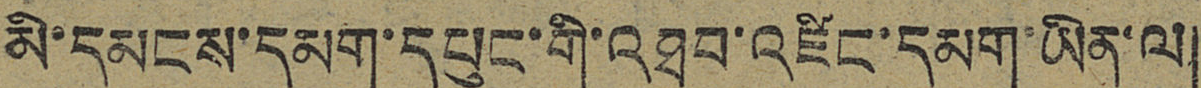མི་དམངས་དམག་དཔུང་གི་འཐབ་འཛིང་དམག་ཡིན་ལ།
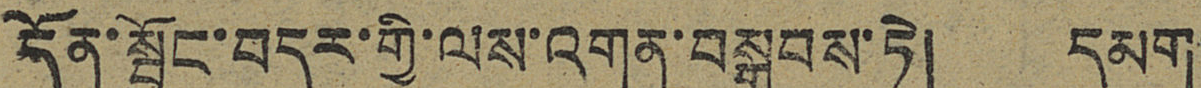དོན་སྦྱོང་བདར་གྱི་ལས་འགན་བསྒྲུབས་ཏེ། དམག་
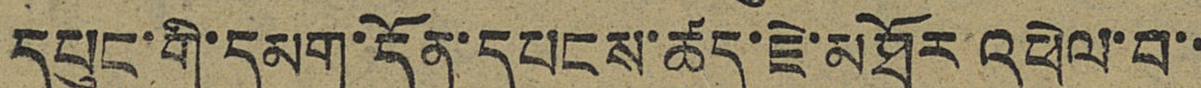དཔུང་གི་དམག་དོན་དཔངས་ཚད་ཇེ་མཐོར འཕེལ་བ་་
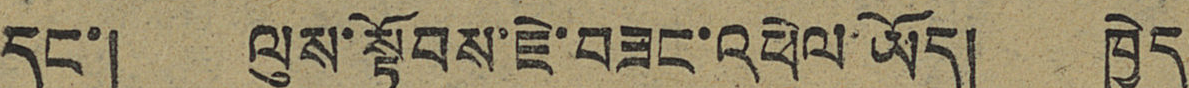དང་། ལུས་སྟོབས་ཇེ་བཟང་འཕེལ་ཡོད། ཁྱེད་
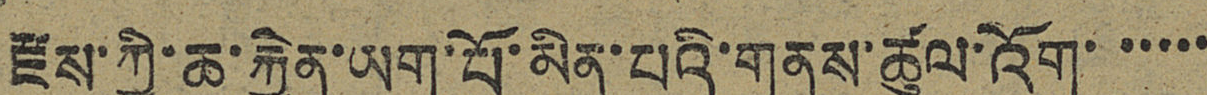རྫས་ཀྱི་ཆ་རྐྱེན་ཡག་པོ་མིན་པའི་གནས་ཚུལ་འོག་་་་་་
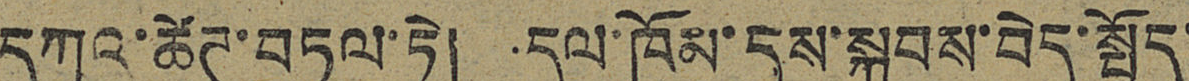དཀའ་ཚེཊ་བཏུལ་ཏེ། དལ་ཁོམ་དུས་སྐབས་བེད་སྤྱོད་
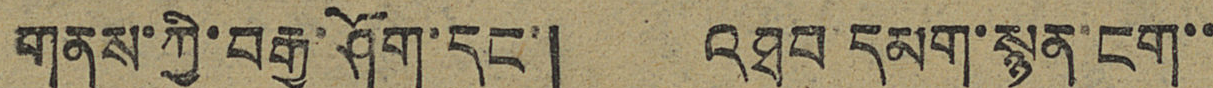གནས་ཀྱི་བརྒྱ་ཤོག་དང་། འཐབ དམག་སྙན་ངག་་
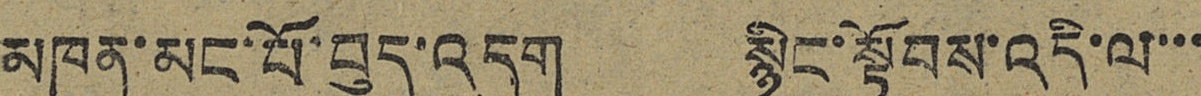མཁན་མང་པོ་བུད་འདུག སྙིང་སྟོབས་འདི་ལ་་་
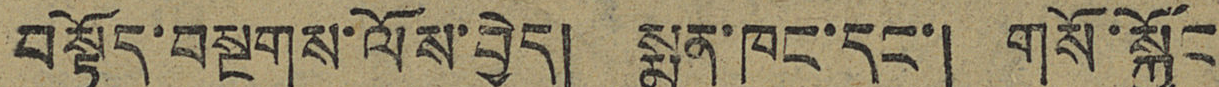བསྟོད་བསྔགས་ལོས་བྱེད། སྨན་ཁང་དང་། གསོ་སྐྱོང
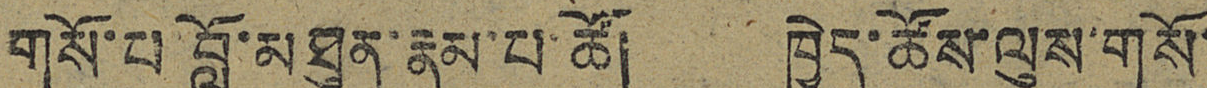གསོ་པ་བློ་མཐུན་རྣམ་པ་ཚོ། ཁྱེད་ཚོས་ལུས་གསོ་
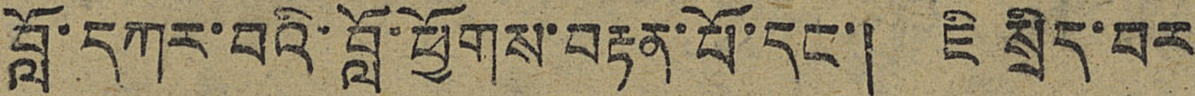བློ་དཀར་བའི་བློ་ཕྱོགས་བརྟན་པོ་དང་། ཇི སྲིད་བར་
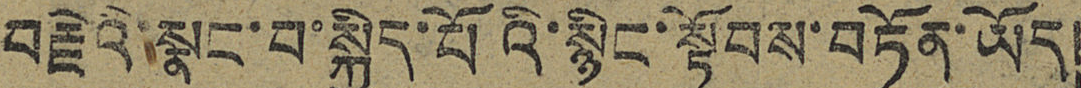བརྗེའི་སྣང་བ་སྐྱིད་པོའི་སྙིང་སྟོབས་བཏོན་ཡོད།
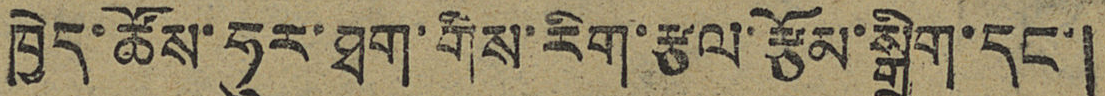ཁྱེད་ཚོས་ཧུར་ཐག་གིས་རིག་རྩལ་རྩོམ་སྒྲིག་དང་།
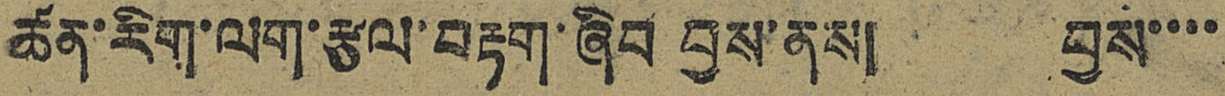ཚན་རིག་ལག་རྩལ་བརྟག་ཞིབ བྱས་ནས། བྱས་་་་
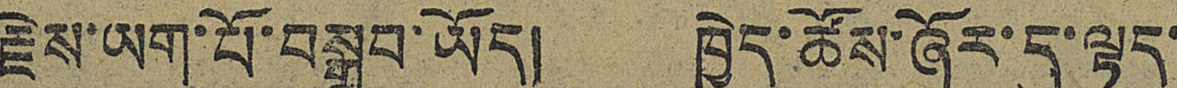རྗེས་ཡག་པོ་བསྒྲུབ་ཡོད། ཁྱེད་ཚོས་ཞོར་དུ་ལྟད་
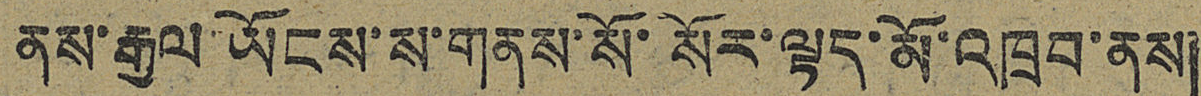ནས་རྒྱལ་ཡོངས་ས་གནས་སོ་སོར་ལྟད་མོ་འཁྲབ་ནས།
